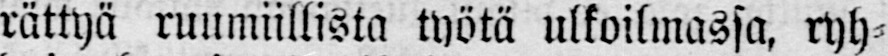rättyä ruumiillista työtä ulkoilmassa, ryh-
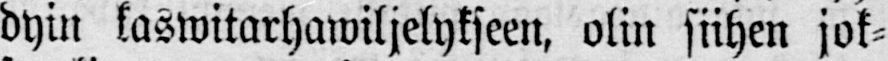dyin kaswitarhawiljelykseen, olin siihen jok-
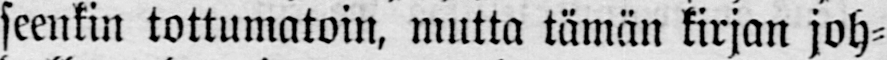seenkin tottumatoin, mutta tämän kirjan joh-
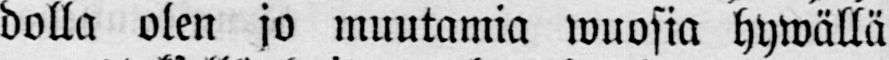dolla olen jo muutamia wuosia hywällä
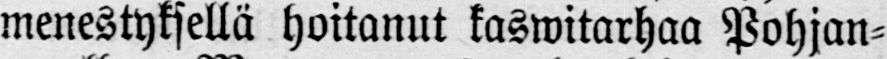menestyksellä hoitanut kaswitarhaa Pohjan-
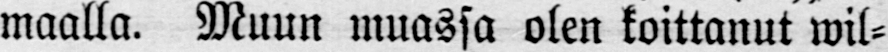maalla. Muun muassa olen koittanut wil-
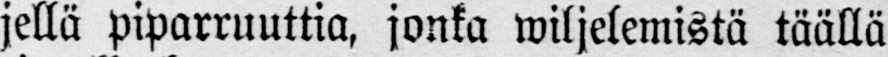jellä piparruuttia, jonka wiljelemistä täällä
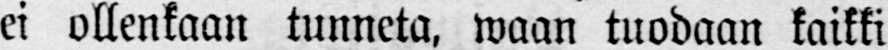ei ollenkaan tunneta, waan tuodaan kaikki
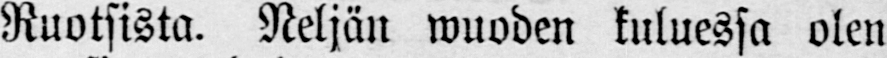Ruotsista. Neljän wuoden kuluessa olen
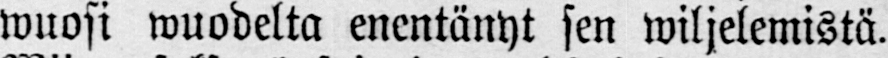wuosi wuodelta enentänyt sen wiljelemistä.
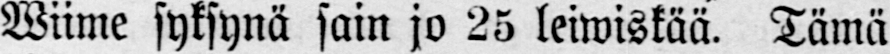Wiime syksynä sain jo 25 leiwiskää. Tämä
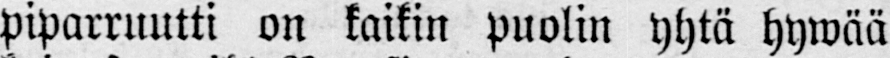piparruutti on kaikin puolin yhtä hywää
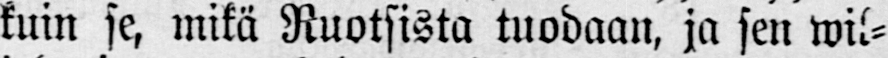kuin se, mikä Ruotsista tuodaan, ja sen wil-
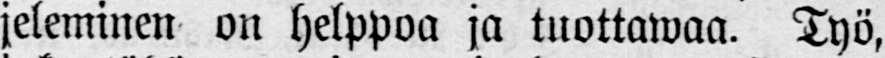jeleminen on helppoa ja tuottawaa. Työ,
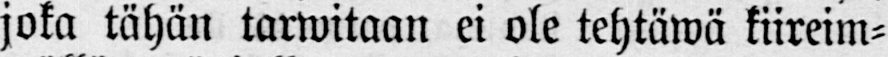joka tähän tarwitaan ei ole tehtäwä kiireim-
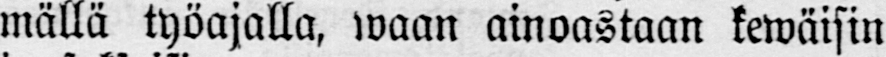mällä työajalla, waan ainoastaan kewäisin
